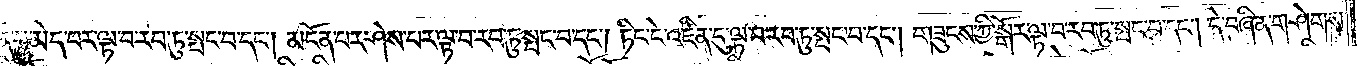སྨོན་པ་མེད་པར་ལྟ་བ་རབ་ཏུ་སྤང་བ་དང༌། མངོན་པར་ཤེས་པར་ལྟ་བ་རབ་ཏུ་སྤང་བ་དང༌། ཏིང་ངེ་འཛིན་དུ་ལྟ་བ་རབ་ཏུ་སྤང་བ་དང༌། གཟུངས་ཀྱི་སྒོར་ལྟ་བ་རབ་ཏུ་སྤང་བ་དང༌། དེ་བཞིན་གཤེགས་
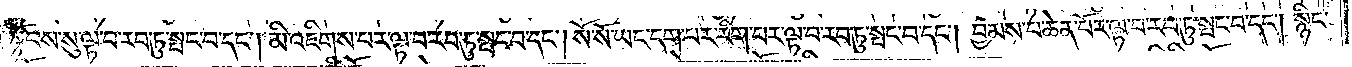པའི་སྟོབས་སུ་ལྟ་བ་རབ་ཏུ་སྤང་བ་དང༌། མི་འཇིགས་པར་ལྟ་བ་རབ་ཏུ་སྤང་བ་དང༌། སོ་སོ་ཡང་དག་པར་རིག་པར་ལྟ་བ་རབ་ཏུ་སྤང་བ་དང༌། བྱམས་པ་ཆེན་པོར་ལྟ་བ་རབ་ཏུ་སྤང་བ་དང༌། སྙིང་
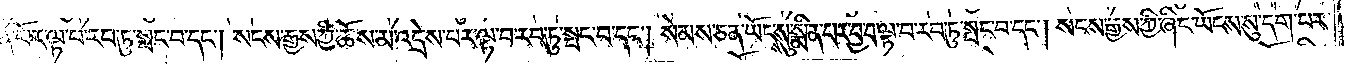རྗེ་ཆེན་པོར་ལྟ་བ་རབ་ཏུ་སྤང་བ་དང༌། སངས་རྒྱས་ཀྱི་ཆོས་མ་འདྲེས་པར་ལྟ་བ་རབ་ཏུ་སྤང་བ་དང༌། སེམས་ཅན་ཡོངས་སུ་སྨིན་པར་ལྟ་བ་རབ་ཏུ་སྤང་བ་དང༌། སངས་རྒྱས་ཀྱི་ཞིང་ཡོངས་སུ་དག་པར་
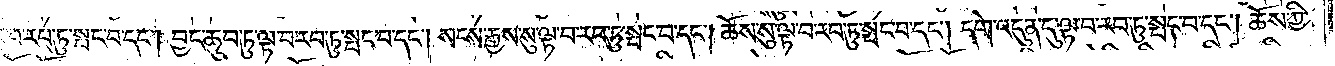བྱ་བ་ལྟ་བ་རབ་ཏུ་སྤང་བ་དང༌། བྱང་ཆུབ་ཏུ་ལྟ་བ་རབ་ཏུ་སྤང་བ་དང༌། སངས་རྒྱས་སུ་ལྟ་བ་རབ་ཏུ་སྤང་བ་དང༌། ཆོས་སུ་ལྟ་བ་རབ་ཏུ་སྤང་བ་དང༌། དགེ་འདུན་དུ་ལྟ་བ་རབ་ཏུ་སྤང་བ་དང༌། ཆོས་ཀྱི་
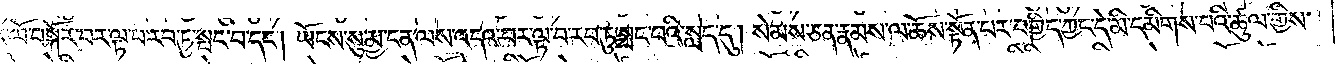འཁོར་ལོ་བསྐོར་བར་ལྟ་བ་རབ་ཏུ་སྤང་བ་དང༌། ཡོངས་སུ་མྱ་ངན་ལས་འདའ་བར་ལྟ་བ་རབ་ཏུ་སྤང་བའི་སླད་དུ། སེམས་ཅན་རྣམས་ལ་ཆོས་སྟོན་པར་བགྱིད་ཀྱང་དེ་མི་དམིགས་པའི་ཚུལ་གྱིས་
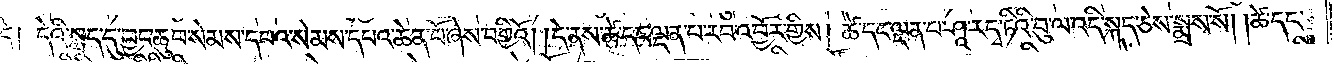དེ། །དེའི་སླད་དུ་བྱང་ཆུབ་སེམས་དཔའ་སེམས་དཔའ་ཆེན་པོ་ཞེས་བགྱིའོ། །དེ་ནས་ཚེ་དང་ལྡན་པ་རབ་འབྱོར་གྱིས། ཚེ་དང་ལྡན་པ་ཤཱ་རདྭ་ཏིའི་བུ་ལ་འདི་སྐད་ཅེས་སྨྲས་སོ། །ཚེ་དང་
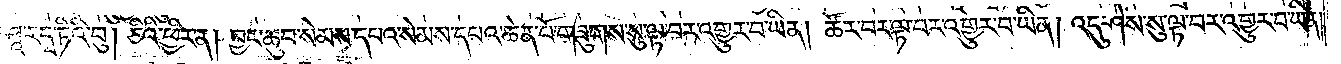ལྡན་པ་ཤཱ་རདྭ་ཏིའི་བུ། ཅིའི་ཕྱིར་ན། བྱང་ཆུབ་སེམས་དཔའ་སེམས་དཔའ་ཆེན་པོ་གཟུགས་སུ་ལྟ་བར་འགྱུར་བ་ཡིན། ཚོར་བར་ལྟ་བར་འགྱུར་བ་ཡིན། འདུ་ཤེས་སུ་ལྟ་བར་འགྱུར་བ་ཡིན།
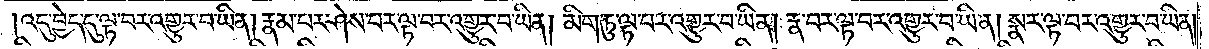འདུ་བྱེད་དུ་ལྟ་བར་འགྱུར་བ་ཡིན། རྣམ་པར་ཤེས་པར་ལྟ་བར་འགྱུར་བ་ཡིན། མིག་ཏུ་ལྟ་བར་འགྱུར་བ་ཡིན། རྣ་བར་ལྟ་བར་འགྱུར་བ་ཡིན། སྣར་ལྟ་བར་འགྱུར་བ་ཡིན།
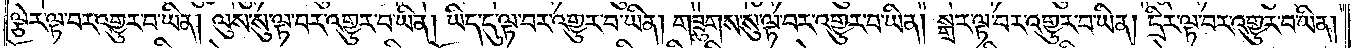ལྕེར་ལྟ་བར་འགྱུར་བ་ཡིན། ལུས་སུ་ལྟ་བར་འགྱུར་བ་ཡིན། ཡིད་དུ་ལྟ་བར་འགྱུར་བ་ཡིན། གཟུགས་སུ་ལྟ་བར་འགྱུར་བ་ཡིན། སྒྲར་ལྟ་བར་འགྱུར་བ་ཡིན། དྲིར་ལྟ་བར་འགྱུར་བ་ཡིན།
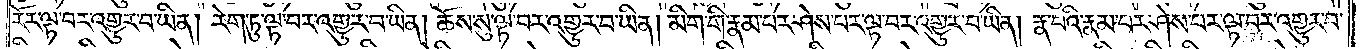རོར་ལྟ་བར་འགྱུར་བ་ཡིན། རེག་ཏུ་ལྟ་བར་འགྱུར་བ་ཡིན། ཆོས་སུ་ལྟ་བར་འགྱུར་བ་ཡིན། མིག་གི་རྣམ་པར་ཤེས་པར་ལྟ་བར་འགྱུར་བ་ཡིན། རྣ་བའི་རྣམ་པར་ཤེས་པར་ལྟ་བར་འགྱུར་བ་
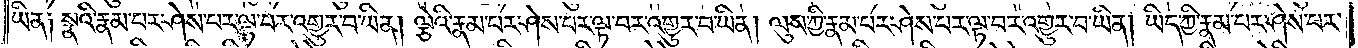ཡིན༑ སྣའི་རྣམ་པར་ཤེས་པར་ལྟ་བར་འགྱུར་བ་ཡིན། ལྕེའི་རྣམ་པར་ཤེས་པར་ལྟ་བར་འགྱུར་བ་ཡིན། ལུས་ཀྱི་རྣམ་པར་ཤེས་པར་ལྟ་བར་འགྱུར་བ་ཡིན། ཡིད་ཀྱི་རྣམ་པར་ཤེས་པར་
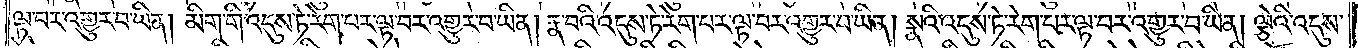ལྟ་བར་འགྱུར་བ་ཡིན། མིག་གི་འདུས་ཏེ་རེག་པར་ལྟ་བར་འགྱུར་བ་ཡིན། རྣ་བའི་འདུས་ཏེ་རེག་པར་ལྟ་བར་འགྱུར་བ་ཡིན། སྣའི་འདུས་ཏེ་རེག་པར་ལྟ་བར་འགྱུར་བ་ཡིན། ལྕེའི་འདུས་
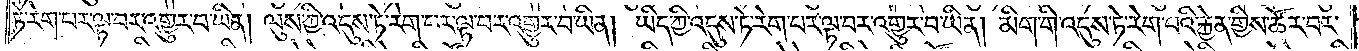ཏེ་རེག་པར་ལྟ་བར་འགྱུར་བ་ཡིན། ལུས་ཀྱི་འདུས་ཏེ་རེག་པར་ལྟ་བར་འགྱུར་བ་ཡིན། ཡིད་ཀྱི་འདུས་ཏེ་རེག་པར་ལྟ་བར་འགྱུར་བ་ཡིན། མིག་གི་འདུས་ཏེ་རེག་པའི་རྐྱེན་གྱིས་ཚོར་བར་
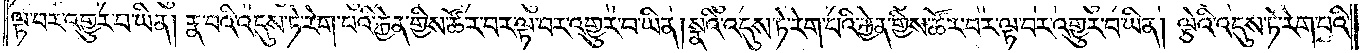ལྟ་བར་འགྱུར་བ་ཡིན། རྣ་བའི་འདུས་ཏེ་རེག་པའི་རྐྱེན་གྱིས་ཚོར་བར་ལྟ་བར་འགྱུར་བ་ཡིན། སྣའི་འདུས་ཏེ་རེག་པའི་རྐྱེན་གྱིས་ཚོར་བར་ལྟ་བར་འགྱུར་བ་ཡིན། ལྕེའི་འདུས་ཏེ་རེག་པའི་
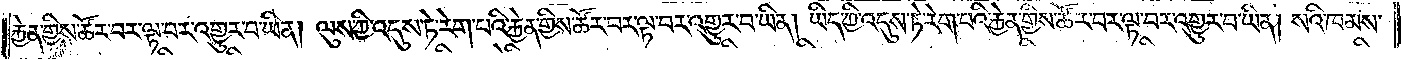རྐྱེན་གྱིས་ཚོར་བར་ལྟ་བར་འགྱུར་བ་ཡིན། ལུས་ཀྱི་འདུས་ཏེ་རེག་པའི་རྐྱེན་གྱིས་ཚོར་བར་ལྟ་བར་འགྱུར་བ་ཡིན། ཡིད་ཀྱི་འདུས་ཏེ་རེག་པའི་རྐྱེན་གྱིས་ཚོར་བར་ལྟ་བར་འགྱུར་བ་ཡིན། སའི་ཁམས་
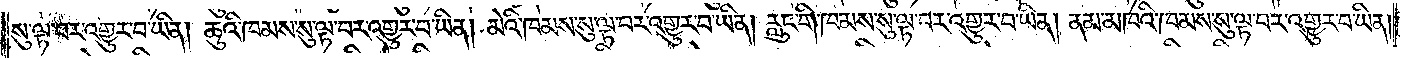སུ་ལྟ་བར་འགྱུར་བ་ཡིན། ཆུའི་ཁམས་སུ་ལྟ་བར་འགྱུར་བ་ཡིན། མེའི་ཁམས་སུ་ལྟ་བར་འགྱུར་བ་ཡིན། རླུང་གི་ཁམས་སུ་ལྟ་བར་འགྱུར་བ་ཡིན། ནམ་མཁའི་ཁམས་སུ་ལྟ་བར་འགྱུར་བ་ཡིན།
